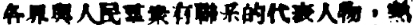各界與人民羣衆有聯系的代表人物，熱
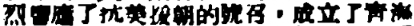烈響應了抗美援朝的號召，成立了靑海
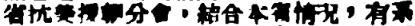省抗美援朝分會，結合本省情況，有系
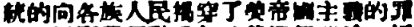統的向各族人民揭穿了美帝國主義的罪
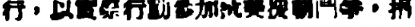行，以實際行動參加抗美援朝鬥爭，捐
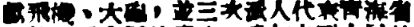獻飛機、大砲、並三次派人代表靑海省
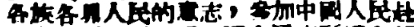各族各界人民的意志，參加中國人民赴
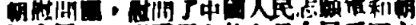朝慰問團，慰問了中國人民志願軍和朝
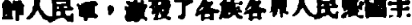鮮人民軍，激發了各族各界人民愛國主
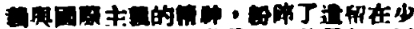義與國際主義的精神，粉碎了遺留在少
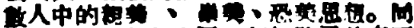數人中的親美、崇美、恐美思想。同
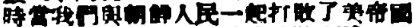時當我們與朝鮮人民一起打敗了美帝國
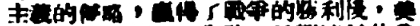主義的侵略，贏得了戰爭的勝利後，美
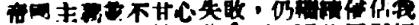帝國主義並不甘心失敗，仍繼續侵佔我
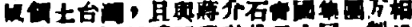國領土台灣，且與蔣介石賣國集團互相
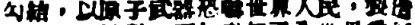勾結，以原子武器恐嚇世界人民，製造
